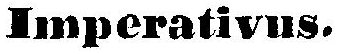Imperativus.
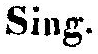Sing.
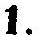1.
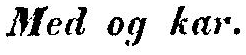Med og kar.
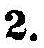2.
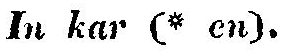In kar (* en).
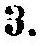3.
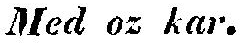Med oz kar.
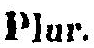Plur.
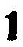1
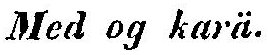Med og karä.
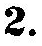2.
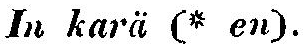In karä (*en).
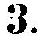3.
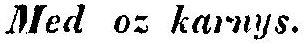Med oz karnys.
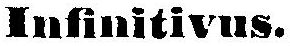Infinitivus.
